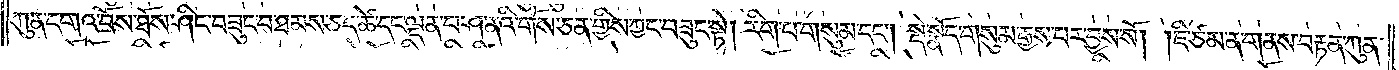ཀུན་དགའ་བོས་ཐོས་ཤིང་བཟུང་བ་ཐམས་ཅད་ཚེ་དང་ལྡན་པ་ཤ་ནའི་གོས་ཅན་གྱིས་ཀྱང་བཟུང་སྟེ། རིག་པ་གསུམ་དང༌། སྡེ་སྣོད་གསུམ་རྒྱས་པར་བྱས་སོ། །ཇི་ཙམ་ན་གནས་བརྟན་ཀུན་
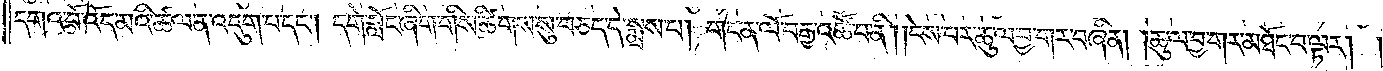དགའ་བོ་འོད་མའི་ཚལ་ན་འདུག་པ་དང༌། དགེ་སློང་ཞིག་གིས་ཚིགས་སུ་བཅད་དེ་སྨྲས་པ། གང་ན་ལོ་བརྒྱ་འཚོ་བ་ནི། །ངེས་པར་ཆུ་ལ་བྱ་གར་བཞིན། །ཆུ་ལ་བྱ་གར་མཐོང་བ་ལྟར། །
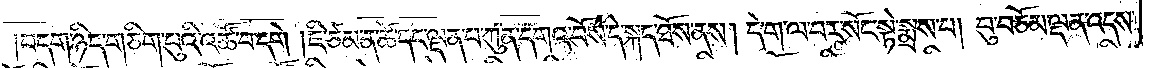།བདག་ཉིད་གཅིག་པུའི་འཚོ་བ་དགེ །ཇི་ཙམ་ན་ཚེ་དང་ལྡན་པ་ཀུན་དགའ་བོས་དེ་སྐད་ཐོས་ནས། དེ་ག་ལ་བར་སོང་སྟེ་སྨྲས་པ། བུ་བཅོམ་ལྡན་འདས་
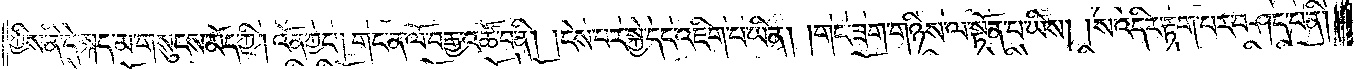ཀྱིས་ནི་དེ་སྐད་མ་གསུངས་མོད་ཀྱི། འོན་ཀྱང༌། གང་ན་ལོ་བརྒྱ་འཚོ་བ་ནི། །ངེས་པར་སྐྱེ་དང་འཇིག་པ་ཡིན། །གང་ཟག་གཉིས་ལ་སྟོན་པ་ཡིས། །ས་འདིར་རྟག་པར་བཤད་པ་ནི། །
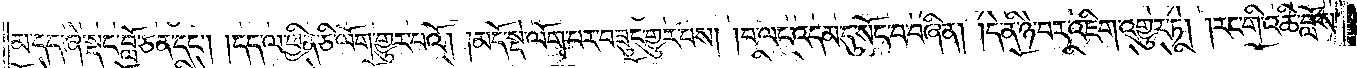མ་དད་ཞེ་སྡང་བློ་ཅན་དང༌། །དད་ལ་ཕྱིན་ཅི་ལོག་གྱུར་པའོ། །མདོ་སྡེ་ལོག་པར་བཟུང་གྱུར་པས། །བ་ལང་འདམ་དུ་སོང་བ་བཞིན། །དེ་ནི་ཉེ་བར་འཇིག་འགྱུར་ཏེ། །རང་གི་འཆི་བློས་
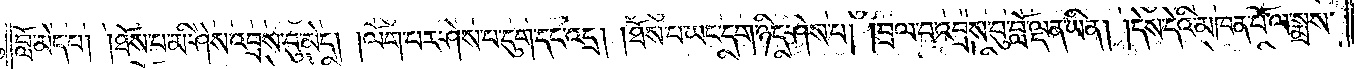བློ་མེད་པ། །ཐོས་པ་མི་ཤེས་འབྲས་བུ་མེད། །ལོག་པར་ཤེས་པ་དུག་དང་འདྲ། །ཐོས་པ་ཡང་དག་ཉིད་ཤེས་པ། །བྲལ་བ་འབྲས་བུ་བློ་ལྡན་ཡིན། །དེས་དེའི་མཁན་པོ་ལ་སྨྲས་
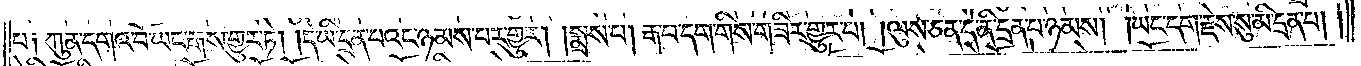པ༑ ཀུན་དགའ་བོ་ཡང་རྒས་གྱུར་ཏེ། །དེ་ཡི་དྲན་པའང་ཉམས་པར་གྱུར། །སྨྲས་པ། རྒ་བ་དག་གིས་གཟིར་གྱུར་པ། །ལུས་ཅན་དེ་ནི་དྲན་པ་ཉམས། །ཡང་དག་རྗེས་སུ་མི་དྲན་པ། །
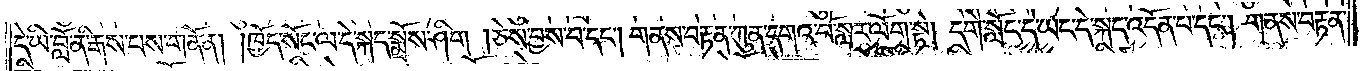དེ་ཡི་བློ་ནི་རྒས་པས་གནོན། །ཁྱོད་སོང་ལ་དེ་སྐད་སྨྲོས་ཤིག །ཅེས་བྱས་བ་དང༌། གནས་བརྟན་ཀུན་དགའ་བོ་སླར་ལོག་སྟེ། དགེ་སློང་དེ་ཡང་དེ་སྐད་འདོན་པ་དང༌། གནས་བརྟན་
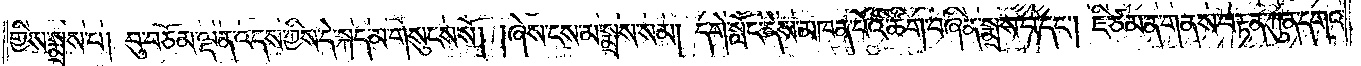གྱིས་སྨྲས་པ། བུ་བཅོམ་ལྡན་འདས་ཀྱིས་དེ་སྐད་མ་གསུངས་སོ། །ཞེས་ངས་མ་སྨྲས་སམ། དགེ་སློང་དེས་མཁན་པོའི་ཚིག་བཞིན་སྨྲས་པ་དང༌། ཇི་ཙམ་ན་གནས་བརྟན་ཀུན་དགའ་
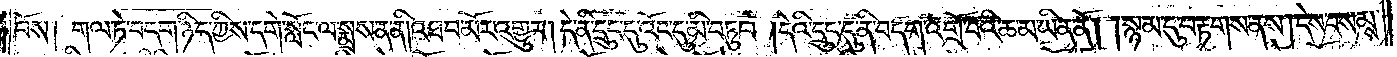བོས། གལ་ཏེ་བདག་ཉིད་ཀྱིས་དགེ་སློང་ལ་སྨྲས་ན་ནི། འཐབ་མོར་འགྱུར། དེ་ནི་དྲུང་དུ་འོང་དུ་མི་བཏུབ་།དེའི་དྲུང་དུ་ནི་བདག་འགྲོ་བའི་ཆ་མ་ཡིན་ནོ། །སྙམ་དུ་བརྟགས་ནས། དེས་བསམས་
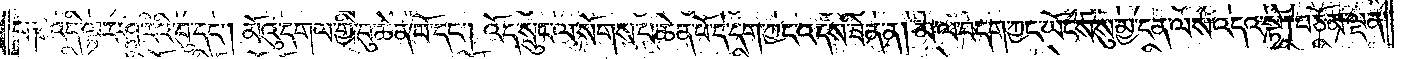པ༑ འདི་ལྟར་ཤཱ་རིའི་བུ་དང༌། མོའུ་དགལ་གྱི་བུ་ཆེན་པོ་དང༌། འོད་སྲུང་ལ་སོགས་པ་ཆེན་པོ་དེ་དག་ཀྱང་འདས་ཟིན་ན། མ་ལ་བདག་ཀྱང་ཡོངས་སུ་མྱ་ངན་ལས་འདའ་སྟེ། བཅོམ་ལྡན་
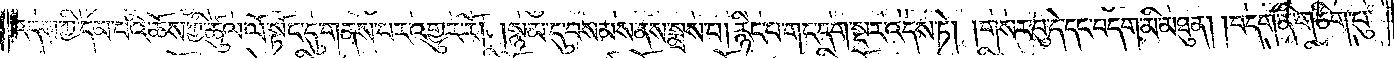འདས་ཀྱི་དམ་པའི་ཆོས་ཀྱི་ཚུལ་ལོ་སྟོང་དུ་གནས་པར་འགྱུར་རོ། །སྙམ་དུ་བསམས་ནས་སྨྲས་པ། རྙིང་པ་གང་དག་སྔར་འདས་ཏེ། །གསར་བུ་དེ་དང་བདག་མི་མཐུན། །བདག་ནི་གཅིག་པུ་
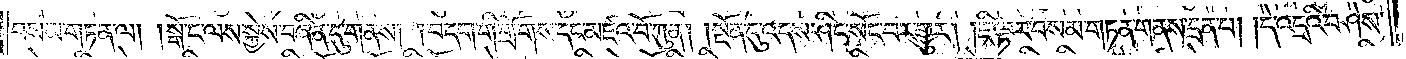བསམ་གཏན་ལ། །སྒོ་ང་ལས་སྐྱེས་བཞིན་དུ་གནས། །བདག་གི་གྲོགས་དང་མཛའ་བོ་ཀུན། །སྔོན་དུ་འདས་ཤིང་སོང་བར་གྱུར། །ཇི་ལྟར་བསམ་གཏན་གནས་དྲན་པ། །དེ་འདྲའི་བཤེས་
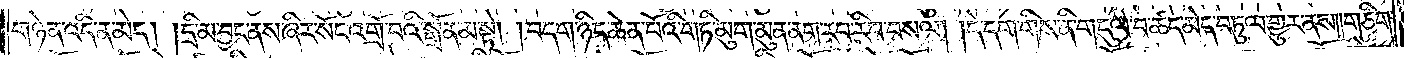གཉེན་འདི་ན་མེད། །དྲི་མ་བྱང་ནས་ཞིར་སོང་འགྲོ་བའི་སྒྲོན་མ་སྟེ། །བདག་ཉིད་ཆེན་པོའི་གཏི་མུག་མུན་ནག་རབ་རིབ་བསལ། །དེ་དག་གིས་ནི་གདུལ་བ་ཚད་མེད་བཏུལ་གྱུར་ནས༎གཅིག་
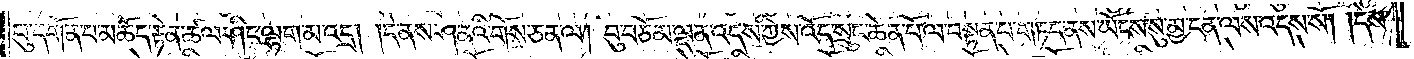པུ་དགོན་པ་མཆོད་རྟེན་ཚལ་ཤིང་ལྷག་མ་འདྲ། །དེ་ནས་ཤ་ནའི་གོས་ཅན་ལ། བུ་བཅོམ་ལྡན་འདས་ཀྱིས་འོད་སྲུང་ཆེན་པོ་ལ་བསྟན་པ་གཏད་ནས་ཡོངས་སུ་མྱ་ངན་ལས་འདས་སོ། །དེས་
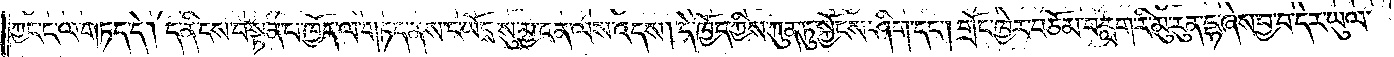ཀྱང་ང་ལ་གཏད་དེ། ད་ནི་ངས་བསྟན་པ་ཁྱོད་ལ་གཏད་ནས་ང་ཡོངས་སུ་མྱ་ངན་ལས་འདས། དེ་ཁྱོད་ཀྱིས་ཀུན་ཏུ་སྐྱོངས་ཤིག་དང༌། གྲོང་ཁྱེར་བཅོམ་བརླག་རི་མུ་རུན་དྷ་ཞེས་བྱ་བ་དེར་ཡུལ་
